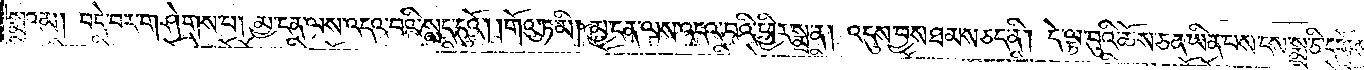སྨྲའམ། བདེ་བར་གཤེགས་པ། མྱ་ངན་ལས་འདའ་བའི་སླད་དུའོ། །གོའུ་ཏ་མི། མྱ་ངན་ལས་འདའ་བའི་ཕྱིར་སྨྲ་ན། འདུས་བྱས་ཐམས་ཅད་ནི། དེ་ལྟ་བུའི་ཆོས་ཅན་ཡིན་པས་ངས་སྨྲ་ཅི་དགོས།
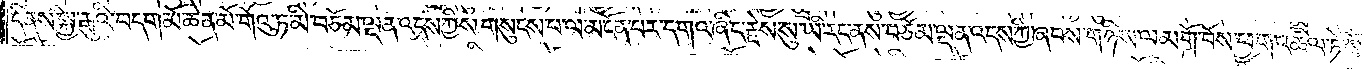དེ་ནས་སྐྱེ་རྒུའི་བདག་མོ་ཆེན་མོ་གོའུ་ཏ་མི་བཅོམ་ལྡན་འདས་ཀྱིས་གསུངས་པ་ལ་མངོན་པར་དགའ་ཞིང་རྗེས་སུ་ཡི་རང་ནས་བཅོམ་ལྡན་འདས་ཀྱི་ཞབས་གཉིས་ལ་མགོ་བོས་ཕྱག་འཚལ་ཏེ་སོང་
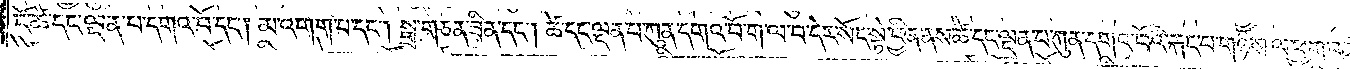ངོ་ཚེ་དང་ལྡན་པ་དགའ་བོ་དང༌། མ་འགག་པ་དང༌། སྒྲ་གཅན་ཟིན་དང༌། ཚེ་དང་ལྡན་པ་ཀུན་དགའ་བོ་ག་ལ་བ་དེར་སོང་སྟེ་ཕྱིན་ནས་ཚེ་དང་ལྡན་པ་ཀུན་དགའ་བོའི་རྐང་པ་གཉིས་ལ་ཕྱག་འཚལ་
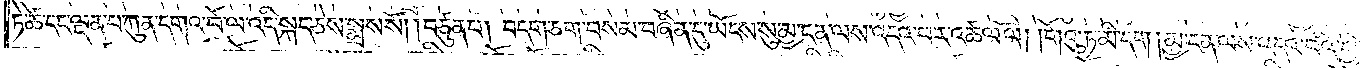ཏེ་ཚེ་དང་ལྡན་པ་ཀུན་དགའ་བོ་ལ་འདི་སྐད་ཅེས་སྨྲས་སོ། །བཙུན་པ། བདག་ཅག་བསམ་བཞིན་དུ་ཡོངས་སུ་མྱ་ངན་ལས་འདའ་བར་འཚལ་ལོ། །གོའུ་ཏ་མི་དག །མྱ་ངན་ལས་འདའ་བའི་ཕྱིར་
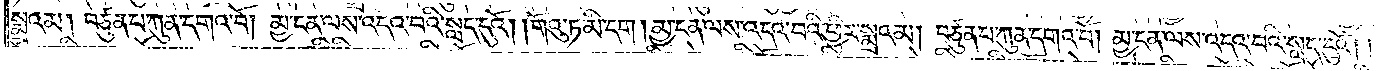སྨྲའམ། བཙུན་པ་ཀུན་དགའ་བོ། མྱ་ངན་ལས་འདའ་བའི་སླད་དུའོ། །གོའུ་ཏ་མི་དག །མྱ་ངན་ལས་འདའ་བའི་ཕྱིར་སྨྲའམ། བཙུན་པ་ཀུན་དགའ་བོ། མྱ་ངན་ལས་འདའ་བའི་སླད་དུའོ། །
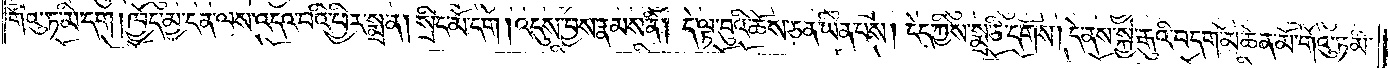གོའུ་ཏ་མི་དག །ཁྱོད་མྱ་ངན་ལས་འདའ་བའི་ཕྱིར་སྨྲ་ན། སྲིང་མོ་དག །འདུས་བྱས་རྣམས་ནི། དེ་ལྟ་བུའི་ཆོས་ཅན་ཡིན་པས། ངེད་ཀྱིས་སྨྲ་ཅི་དགོས། དེ་ནས་སྐྱེ་རྒུའི་བདག་མོ་ཆེན་མོ་གོའུ་ཏ་མི་
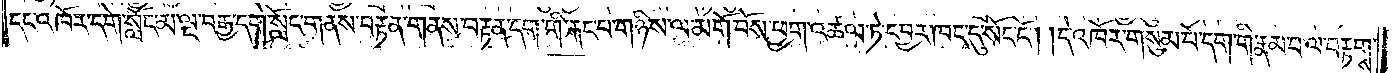དང་འཁོར་དགེ་སློང་མ་ལྔ་བརྒྱ་དགེ་སློང་གནས་བརྟན་གནས་བརྟན་དག་གི་རྐང་པ་གཉིས་ལ་མགོ་བོས་ཕྱག་འཚལ་ཏེ་དབྱར་ཁང་དུ་སོང་ངོ༌། །དེ་འཁོར་གསུམ་པོ་དག་གི་རྣམ་པ་ལ་བརྟགས་
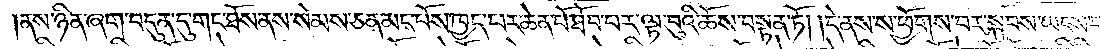ནས་ཉིན་ཞག་བདུན་དུ་གང་ཐོས་ནས་སེམས་ཅན་མང་པོས་ཁྱད་པར་ཆེན་པོ་ཐོབ་པར་ལྟ་བུའི་ཆོས་བསྟན་ཏོ། །དེ་ནས་ས་ཕྱོགས་བར་སྐབས་ཡངས་པ་
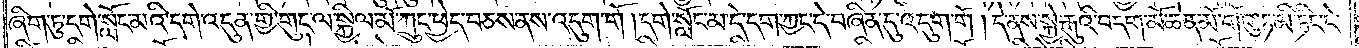ཞིག་ཏུ་དགེ་སློང་མའི་དགེ་འདུན་གྱི་གུང་ལ་སྐྱིལ་མོ་ཀྲུང་ཕྱེད་བཅས་ནས་འདུག་གོ །དགེ་སློང་མ་དེ་དག་ཀྱང་དེ་བཞིན་དུ་འདུག་གོ །དེ་ནས་སྐྱེ་རྒུའི་བདག་མོ་ཆེན་མོ་གོའུ་ཏ་མི་ཏིང་ངེ་
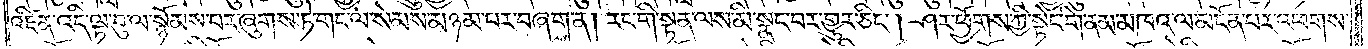འཛིན་འདི་ལྟ་བུ་ལ་སྙོམས་པར་ཞུགས་ཏེ་གང་ལ་སེམས་མཉམ་པར་བཞག་ན། རང་གི་སྟན་ལས་མི་སྣང་བར་གྱུར་ཅིང༌། ཤར་ཕྱོགས་ཀྱི་སྟེང་གི་ནམ་མཁའ་ལ་མངོན་པར་འཕགས་
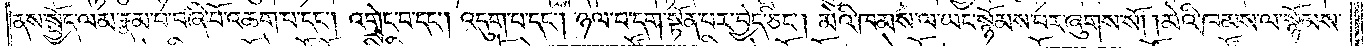ནས་སྤྱོད་ལམ་རྣམ་པ་བཞི་པོ་འཆག་པ་དང༌། འགྲེང་བ་དང༌། འདུག་པ་དང༌། ཉལ་བ་དག་སྟོན་པར་བྱེད་ཅིང༌། མེའི་ཁམས་ལ་ཡང་སྙོམས་པར་ཞུགས་སོ། །མེའི་ཁམས་ལ་སྙོམས་
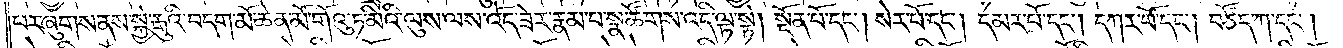པར་ཞུགས་ནས་སྐྱེ་རྒུའི་བདག་མོ་ཆེན་མོ་གོའུ་ཏ་མིའི་ལུས་ལས་འོད་ཟེར་རྣམ་པ་སྣ་ཚོགས་འདི་ལྟ་སྟེ། སྔོན་པོ་དང༌། སེར་པོ་དང༌། དམར་པོ་དང༌། དཀར་པོ་དང༌། བཙོད་ཀ་དང༌།
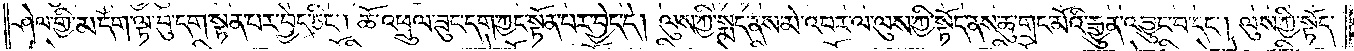ཤེལ་གྱི་མདོག་ལྟ་བུ་དག་སྟན་པར་བྱེད་ཅིང༌། ཆོ་འཕྲུལ་ཟུང་དག་ཀྱང་སྟོན་པར་བྱེད་དེ། ལུས་ཀྱི་སྨད་ནས་མེ་འབར་ལ་ལུས་ཀྱི་སྟོད་ནས་ཆུ་གྲང་མོའི་རྒྱུན་འབྱུང་བ་དང༌། ལུས་ཀྱི་སྟོད་
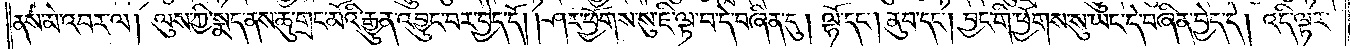ནས་མེ་འབར་ལ། ལུས་ཀྱི་སྨད་ནས་ཆུ་གྲང་མོའི་རྒྱུན་འབྱུང་བར་བྱེད་དོ། །ཤར་ཕྱོགས་སུ་ཇི་ལྟ་བ་དེ་བཞིན་དུ། ལྷོ་དང༌། ནུབ་དང༌། བྱང་གི་ཕྱོགས་སུ་ཡང་དེ་བཞིན་བྱེད་དེ། འདི་ལྟར་
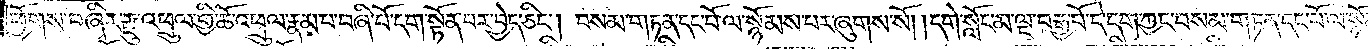ཕྱོགས་བཞིར་རྫུ་འཕྲུལ་གྱི་ཆོ་འཕྲུལ་རྣམ་པ་བཞི་པོ་དག་སྟོན་པར་བྱེད་ཅིང༌། བསམ་གཏན་དང་པོ་ལ་སྙོམས་པར་ཞུགས་སོ། །དགེ་སློང་མ་ལྔ་བརྒྱ་པོ་དེ་དག་ཀྱང་བསམ་གཏན་དང་པོ་ལ་སྙོམས་
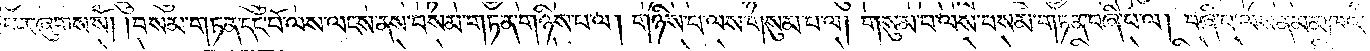པར་ཞུགས་སོ། །བསམ་གཏན་དང་པོ་ལས་ལངས་ནས་བསམ་གཏན་གཉིས་པ་ལ། གཉིས་པ་ལས་གསུམ་པ་ལ། གསུམ་པ་ལས་བསམ་གཏན་བཞི་པ་ལ། བཞི་པ་ལས་ནམ་མཁའ་
